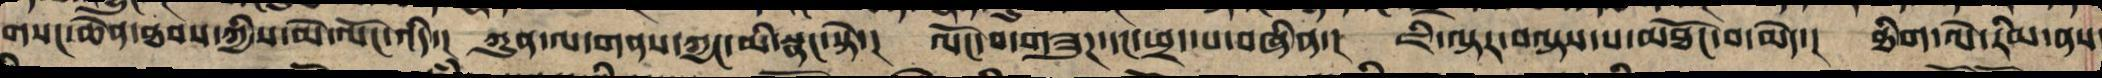གསང་ཆེན་ཐབས་ཀྱི་མེ་ལོང་འདི་། ཀུན་ལ་གནས་ཀྱང་མི་སྣང་སྟེ་། ལོང་བ་གཟུཌ་དང་འཕྲད་པ་བཞིན་། ཇི་ལྟར་བལྟས་པས་མཐོང་བ་མེད་། ཐིག་ལེ་རིམ་ནས
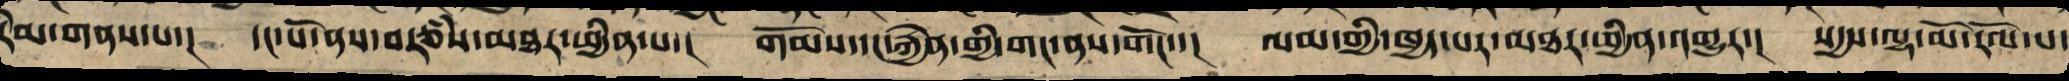རིམ་གནས་པ་། དང་པོ་ནས་བརྩཾས་མཐར་ཕྱིན་པར་། གོམས་དང་རྐྱེན་གྱིས་གོང་ནས་གོང་་། ལམ་གྱི་ཁྱད་པར་མཐར་ཕྱིན་འགྱུར་། སདྱས་ལྷ་མོ་རོལ་པ་
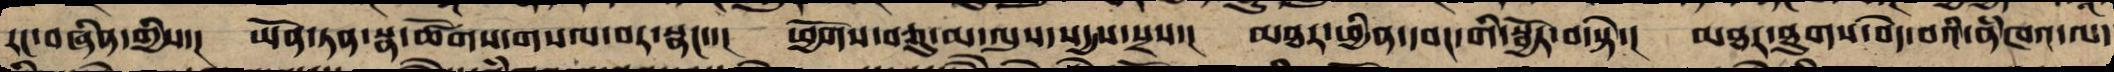རང་བཞིན་གྱིས་། ཡོན་ཏན་སྣ་ཚོགས་གསལ་བར་སྣང་་། ཕྱོགས་བཅུ་མ་ལུས་སདྱས་སྲས་། མཐར་ཕྱིན་དབང་གི་སྦྱོར་བ་སྟེ་། མཐར་ཐུག་བདེ་བའི་ནཾཁའ་ལ་
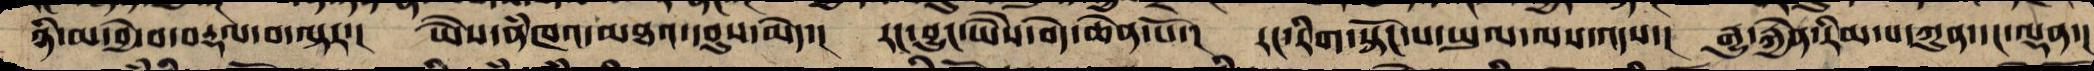ཉི་མ་བྱེ་བ་བརྡལ་བ་ལྟར་། ཡཻས་ནཾཁའ་མཐའ་དབུས་མེད་། རང་བྱུང་ཡཻས་བདེ་ཆེན་པོ་། རང་རིག་སྟོང་པ་ཡུལ་ལས་འདས་། རྒྱུ་རྐྱེན་རིམ་པ་ཀུན་དང་ལྡན་།
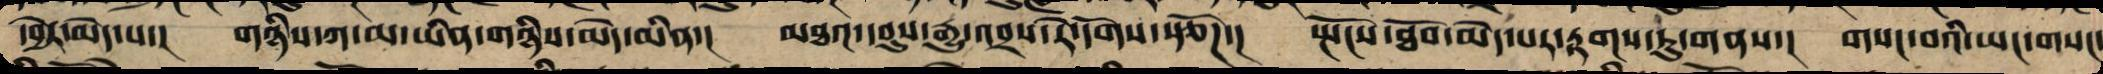དབྱེར་མེད་པ་། གཉིས་ཀ་མ་ཡིན་གཉིས་མེད་མིན་། མཐའ་དབུས་རྒྱུ་འབྲས་རེ་དོགས་རྩོཌ་། སྤོངས་ཐོབ་མེད་པར་རྟགས་ཏུ་གནས་། གསང་བའི་ཡང་གསང་
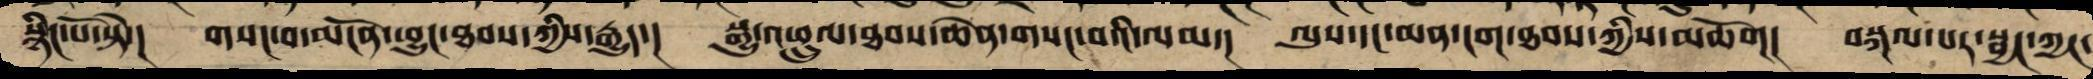སྙིང་པོ་སྟེ་། གསང་བ་མངོན་ཕྱུང་ཐབས་ཀྱི་རྒྱུད་། སྒྱུ་འཕྲུལ་ཐབས་ཆེན་གསང་བའི་ལམ་། ལུས་དང་མན་ངག་ཐབས་ཀྱི་མཆོག་ བསྐལ་པར་སྦྱང་ཀྱང་
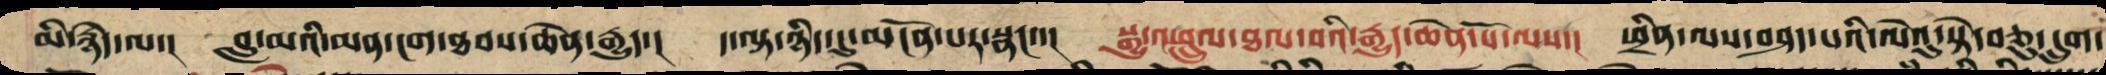མི་རྙེད་ལ་། བླ་མའི་མན་ངག་ཐབས་ཆེན་རྒྱུད་། ད་ལྟ་ཉིད་དུ་མངོན་པར་སྣང་་། སྒྱུ་འཕྲུལ་ཐལ་བའི་རྒྱུད་ཆེན་པོ་ལས་། ཕྲིན་ལས་བཤད་པའི་ལེའུ་སྟེ་བཅུ་དྲུག་
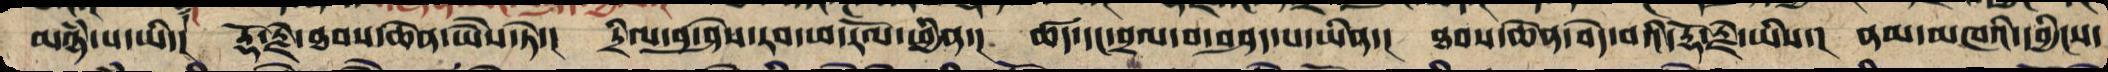མཉཾ་པ་ཡི་། རྡོ་རྗེ་ཐབས་ཆེན་ཡཻས་ཏེ་། དྲིལ་བུ་ཤེས་རབ་ཕ་རོལ་ཕྱིན་། ཚད་དང་བྲལ་བར་བཤད་པ་ཡིན་། ཐབས་ཆེན་བདེ་བའི་རྡོ་རྗེ་ཡིས་། ནམ་མཁའི་དབྱིངས་
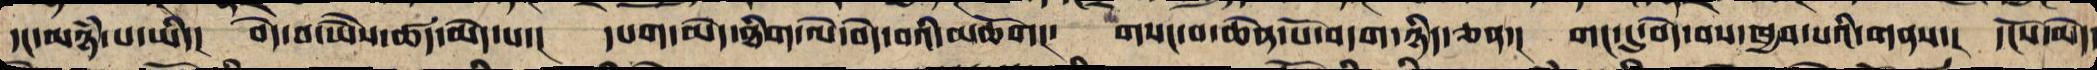དང་མཉཾ་པ་ཡི་། བདེ་བ་ཡཻས་ཚད་མེད་པ་། དཔག་མེད་ཐིག་ལེ་བདེ་བའི་མཆོག། གསང་བ་ཆེན་པོ་བདག་ཉིད་ཅན་། གང་དུ་བདེ་བས་ཁྱབ་པའི་གནས་། དངོས་མེད་
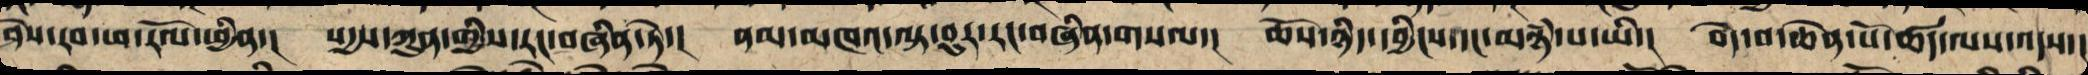ཤེས་རབ་ཕ་རོལ་ཕྱིན་། སདྱས་ཀུན་གྱི་རང་བཞིན་ཏེ་། ནམ་མཁའ་ལྟ་བུར་རང་བཞིན་གསལ་། ཆོས་ཉིད་དབྱིངས་དང་མཉཾ་པ་ཡི་། བདེ་བ་ཆེན་པོ་ཚད་ལས་འདས་།
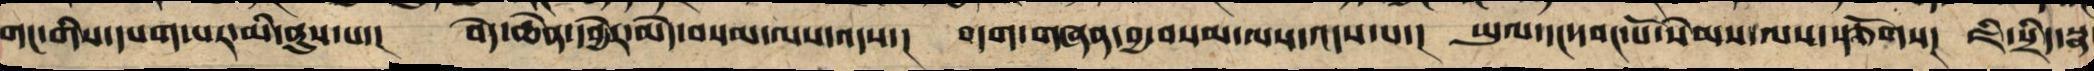གང་གིས་དཔག་པར་མི་ནུས་པ་། བདེ་ཆེན་དབྱེར་མེད་བསམ་ལས་འདས་། བདག་གཞན་བྱ་བསམ་ལས་འདས་པ་། ཡུལ་དང་དབང་པོ་སེམས་ལ་རྩོགས་། ཇི་སྲིད་སྣ
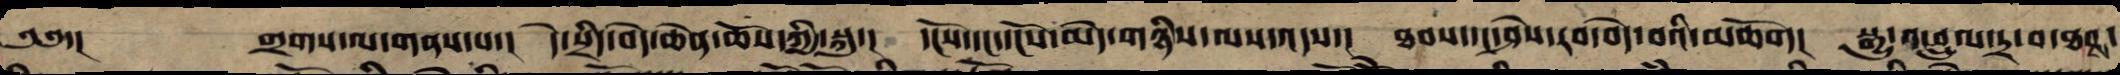༄༅་། གྲགས་ལས་འདས་པ་། དེ་སྲིད་བདེ་ཆེན་ཆོས་ཀྱི་སྐུ་། དངོས་དང་དངོས་མེད་གཉིས་ལས་འདས་། ཐབས་དང་ཤེས་རབ་བདེ་བའི་མཆོག། སྒྱུ་འཕྲུལ་དྲ་བ་ཐབས་
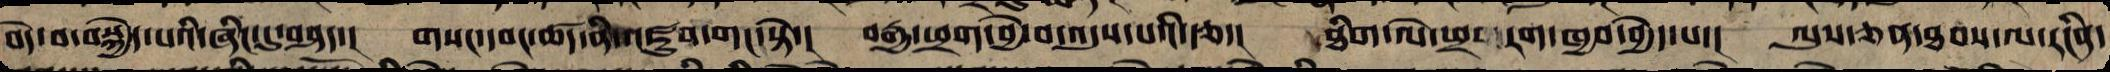བདེ་བ་སྐྱེད་པའི་ཞིང་དུ་བཤད་། གསང་དབང་ཚད་ནི་མཛུབ་གང་སྟེ་། བརྒྱ་ཕྲག་བྱེ་བ་འདུས་པའི་རྩ་། ཐིག་ལེ་ཕྲ་རག་ཁྱབ་བྱེད་པ་། ལུས་ཅན་ཐབས་ལ་རངིན་
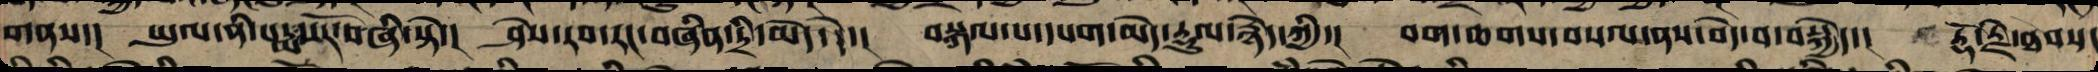གནས་། ཡུལ་ནི་པདྨ་སོར་བཞི་སྟེ་། ཤེས་རབ་རང་བཞིན་དྲི་མེད་དེ་། བསྐལ་པ་དཔག་མེད་རྡུལ་སྙེད་ཀྱི་། བག་ཆགས་བསལ་ནས་བདེ་བ་བསྐྱེད་། རྡོ་རྗེ་ཐབས་
